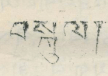བསྐུལ།།
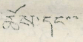ཚོས་དང་།
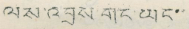ལས་འབྲས་གང་ཡང་་
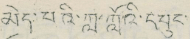མེད་པའི་ཀླ་ཀློའི་དཔུང་
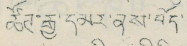ཚོཊ་རྒྱ་དམར་ནས་བོད་
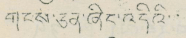གངས་ཅན་ཞིང་འདིའི་་
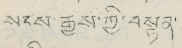སངས་རྒྱས་ཀྱི་བསྟན་
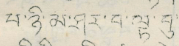པ་ཉི་མ་ཤར་བ་ལྟ་བུ་
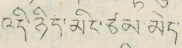འདི་ཉིད་མིང་ཙམ་མེད་
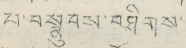པ་བསྣྲུབས་བཤིགས་
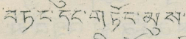བཏང་དང་གཏོང་མུས་
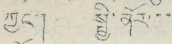ཀྱང་། སྤྱི་ནོར་་
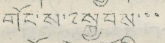གོང་ས་༸སྐྱབས་་་
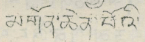མགོན་ཆེན་པོའི་
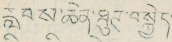རླབས་ཆེན་ཐུཊ་བསྐྱེད།
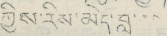ཀྱིས་རིས་མེད་བླ་་་
